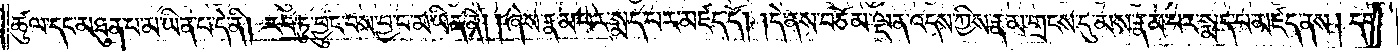ཚུལ་དང་མཐུན་པ་མ་ཡིན་པ་དེ་ནི། རབ་ཏུ་བྱུང་བས་བྱ་བ་མ་ཡིན་ནོ། །ཞེས་རྣམ་པར་སྨད་པར་མཛད་དོ། །དེ་ནས་བཅོམ་ལྡན་འདས་ཀྱིས་རྣམ་གྲངས་དུ་མས་རྣམ་པར་སྨད་པ་མཛད་ནས། དགེ་
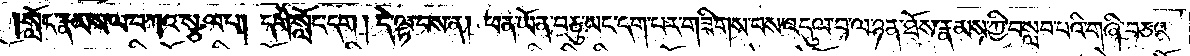སློང་རྣམས་ལ་བཀའ་སྩལ་པ། དགེ་སློང་དག། དེ་ལྟ་བས་ན། ཕན་ཡོན་བཅུ་ཡང་དག་པར་གཟིགས་པས་འདུལ་བ་ལ་ཉན་ཐོས་རྣམས་ཀྱི་བསླབ་པའི་གཞི་བཅའ་
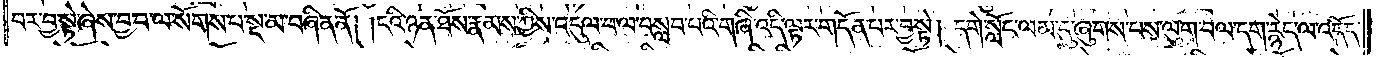བར་བྱ་སྟེ་ཞེས་བྱ་བ་ལ་སོགས་པ་སྔ་མ་བཞིན་ནོ། །ངའི་ཉན་ཐོས་རྣམས་ཀྱིས་འདུལ་བ་ལ་བསླབ་པའི་གཞི་འདི་ལྟར་གདོན་པར་བྱ་སྟེ། དགེ་སློང་ལམ་དུ་ཞུགས་པས་ལུག་བལ་དག་རྙེད་ལ་འདོད་
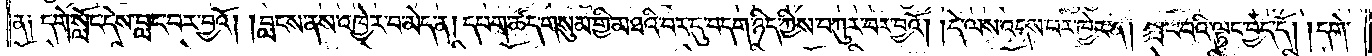ན༑ དགེ་སློང་དེས་བླང་བར་བྱའོ། །བླངས་ནས་འཁྱེར་བ་མེད་ན། དཔག་ཚད་གསུམ་གྱི་མཐའི་བར་དུ་བདག་ཉིད་ཀྱིས་བཀུར་བར་བྱའོ། །དེ་ལས་འདས་པར་ཁྱེར་ན། སྤང་བའི་ལྟུང་བྱེད་དོ། །དགེ་
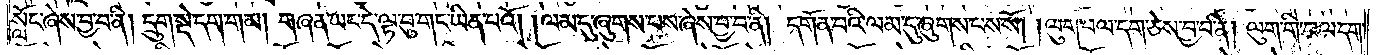སློང་ཞེས་བྱ་བ་ནི། དྲུག་སྡེ་དག་གམ། གཞན་ཡང་དེ་ལྟ་བུ་གང་ཡིན་པའོ། །ལམ་དུ་ཞུགས་པས་ཞེས་བྱ་བ་ནི། དགོན་པའི་ལམ་དུ་ཞུགས་པས་སོ། །ལུག་བལ་དག་ཅེས་བྱ་བ་ནི། ལུག་གི་བལ་དག་
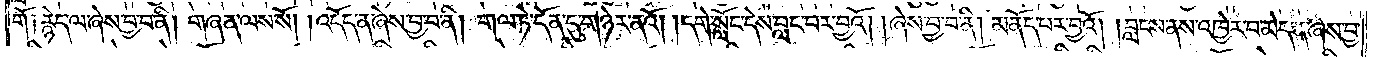གོ༑ རྙེད་ལ་ཞེས་བྱ་བ་ནི། གཞན་ལས་སོ། །འདོད་ན་ཞེས་བྱ་བ་ནི། གལ་ཏེ་དོན་དུ་གཉེར་ནའོ། །དགེ་སློང་དེས་བླང་བར་བྱའོ། །ཞེས་བྱ་བ་ནི། མནོད་པར་བྱའོ། །བླངས་ནས་འཁྱེར་བ་མེད་ན་ཞེས་བྱ་
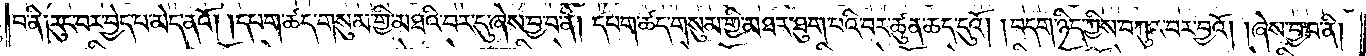བ་ནི། རུང་བར་བྱེད་པ་མེད་ནའོ། དཔག་ཚད་གསུམ་གྱི་མཐའི་བར་དུ་ཞེས་བྱ་བ་ནི། དཔག་ཚད་གསུམ་གྱི་མཐར་ཐུག་པའི་བར་ཚུན་ཆད་དུའོ། །བདག་ཉིད་ཀྱིས་བཀུར་བར་བྱའོ། །ཞེས་བྱ་བ་ནི།
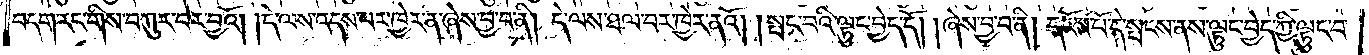བདག་རང་གིས་བཀུར་བར་བྱའོ། །དེ་ལས་འདས་པར་ཁྱེར་ན་ཞེས་བྱ་བ་ནི། དེ་ལས་ཐལ་བར་ཁྱེར་ནའོ། །སྤང་བའི་ལྟུང་བྱེད་དོ། །ཞེས་བྱ་བ་ནི། དངོས་པོ་དེ་སྤངས་ནས་ལྟུང་བྱེད་ཀྱི་ལྟུང་བ་
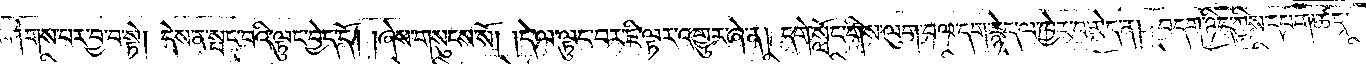བཤགས་པར་བྱ་བ་སྟེ། དེས་ན་སྤང་བའི་ལྟུང་བྱེད་དོ། །ཞེས་གསུངས་སོ། དེ་ལ་ལྟུང་བར་ཇི་ལྟར་འགྱུར་ཞེ་ན། དགེ་སློང་གིས་ལུག་བལ་དག་རྙེད་ལ་ཁྱེར་བ་མེད་ན། བདག་ཉིད་ཀྱིས་དཔག་ཚད་
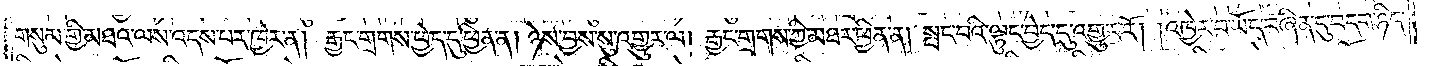གསུམ་གྱི་མཐའ་ལས་འདས་པར་ཁྱེར་ན། རྒྱང་གྲགས་ཕྱེད་དུ་ཕྱིན་ན། ཉེས་བྱས་སུ་འགྱུར་ལ། རྒྱང་གྲགས་ཀྱི་མཐར་ཕྱིན་ན། སྤང་བའི་ལྟུང་བྱེད་དུ་འགྱུར་རོ། །འཁྱེར་བ་ཡོད་བཞིན་དུ་བདག་ཉིད་
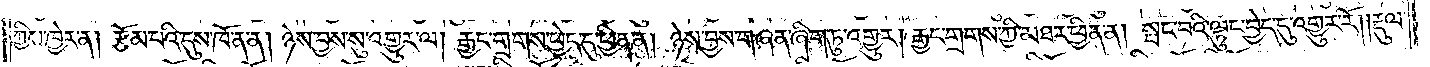ཀྱིས་ཁྱེར་ན། རྩོམ་པའི་དུས་ཁོ་ན་ན། ཉེས་བྱས་སུ་འགྱུར་ལ། རྒྱང་གྲགས་ཕྱེད་དུ་ཕྱིན་ན། ཉེས་བྱས་གཞན་ཞིག་ཏུ་འགྱུར། རྒྱང་གྲགས་ཀྱི་མཐར་ཕྱིན་ན། སྤང་བའི་ལྟུང་བྱེད་དུ་འགྱུར་རོ། །རྡུལ་
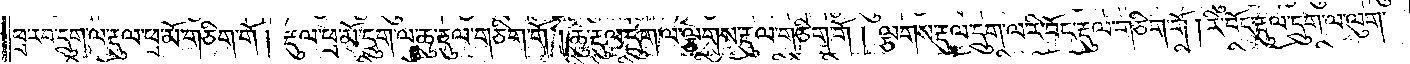ཕྲ་རབ་དྲུག་ལ་རྡུལ་ཕྲ་མོ་གཅིག་གོ། རྡུལ་ཕྲ་མོ་དྲུག་ལ་ཆུ་རྡུལ་གཅིག་གོ། ཆུ་རྡུལ་དྲུག་ལ་ལྕགས་རྡུལ་གཅིག་གོ། ལྕགས་རྡུལ་དྲུག་ལ་རི་བོང་རྡུལ་གཅིག་གོ། རི་བོང་རྡུལ་དྲུག་ལ་ལུག་
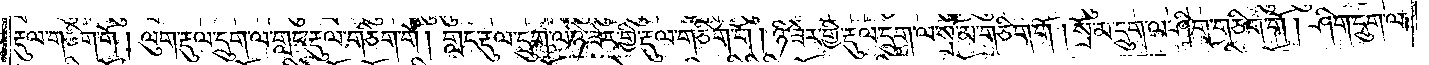རྡུལ་གཅིག་གོ། ལུག་རྡུལ་དྲུག་ལ་གླང་རྡུལ་གཅིག་གོ། གླང་རྡུལ་དྲུག་ལ་ཉི་ཟེར་གྱི་རྡུལ་གཅིག་གོ། ཉི་ཟེར་གྱི་རྡུལ་དྲུག་ལ་སྲོ་མ་གཅིག་གོ །སྲོ་མ་དྲུག་ལ་ཤིག་གཅིག་གོ། ཤིག་དྲུག་ལ་
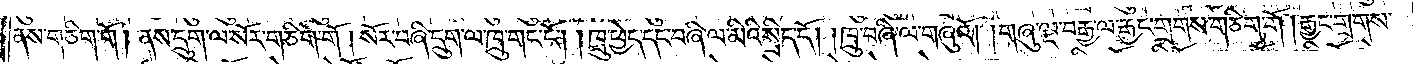ནས་གཅིག་གོ། ནས་དྲུག་ལ་སོར་གཅིག་གོ། སོར་བཞི་དྲུག་ལ་ཁྲུ་གང་ངོ༌། །ཁྲུ་ཕྱེད་དང་བཞི་ལ་མིའི་སྲིད་དོ། །ཁྲུ་བཞི་ལ་གཞུའོ། །གཞུ་ལྔ་བརྒྱ་ལ་རྒྱང་གྲགས་གཅིག་གོ། རྒྱང་གྲགས་
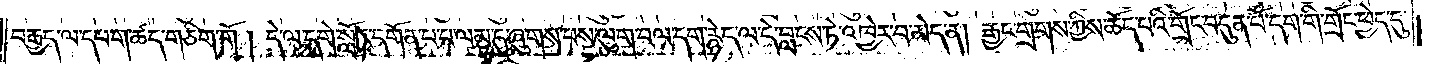བརྒྱད་ལ་དཔག་ཚད་གཅིག་གོ། དེ་ལ་དགེ་སློང་དགོན་པ་བ་ལམ་དུ་ཞུགས་པས་ལུག་བལ་དག་རྙེད་ལ་དེ་བླངས་ཏེ་འཁྱེར་བ་མེད་ན། རྒྱང་གྲགས་ཀྱིས་ཆོད་པའི་གྲོང་བདུན་པོ་དག་གི་གྲོང་ཕྱེད་དུ་
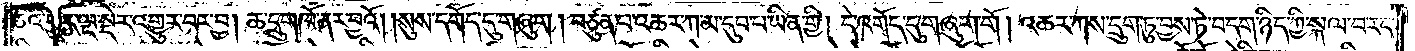ཅིའི་ཕྱིར་ལྔ་སྡེར་འགྱུར་བར་བྱ། ཆ་དྲུག་ཁོ་ནར་བྱའོ། །སུས་དགོད་དུ་གཞུག། བཙུན་པ་འཆར་ཀ་མ་དུབ་པ་ཡིན་གྱི། དེ་འགོད་དུ་གཞུག་གོ། འཆར་ཀས་དྲུག་ཏུ་བྱས་ཏེ་བདག་ཉིད་ཀྱི་སྐལ་བ་རང་
